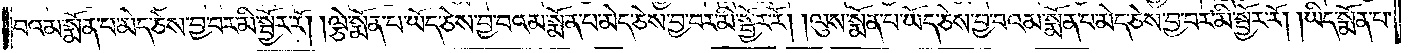བའམ་སྨོན་པ་མེད་ཅེས་བྱ་བར་མི་སྦྱོར་རོ། །ལྕེ་སྨོན་པ་ཡོད་ཅེས་བྱ་བའམ་སྨོན་པ་མེད་ཅེས་བྱ་བར་མི་སྦྱོར་རོ། །ལུས་སྨོན་པ་ཡོད་ཅེས་བྱ་བའམ་སྨོན་པ་མེད་ཅེས་བྱ་བར་མི་སྦྱོར་རོ། །ཡིད་སྨོན་པ་
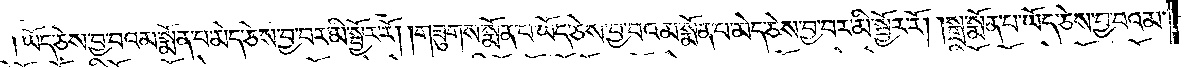ཡོད་ཅེས་བྱ་བའམ་སྨོན་པ་མེད་ཅེས་བྱ་བར་མི་སྦྱོར་རོ། །གཟུགས་སྨོན་པ་ཡོད་ཅེས་བྱ་བའམ་སྨོན་པ་མེད་ཅེས་བྱ་བར་མི་སྦྱོར་རོ། །སྒྲ་སྨོན་པ་ཡོད་ཅེས་བྱ་བའམ་
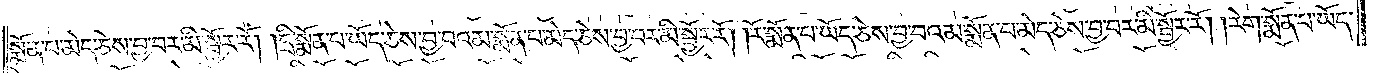སྨོན་པ་མེད་ཅེས་བྱ་བར་མི་སྦྱོར་རོ། །དྲི་སྨོན་པ་ཡོད་ཅེས་བྱ་བའམ་སྨོན་པ་མེད་ཅེས་བྱ་བར་མི་སྦྱོར་རོ། །རོ་སྨོན་པ་ཡོད་ཅེས་བྱ་བའམ་སྨོན་པ་མེད་ཅེས་བྱ་བར་མི་སྦྱོར་རོ། །རེག་སྨོན་པ་ཡོད་
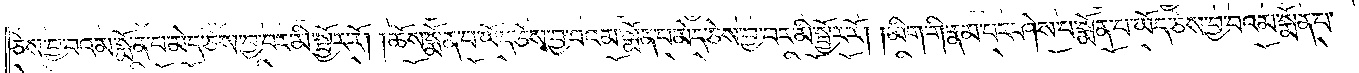ཅེས་བྱ་བའམ་སྨོན་པ་མེད་ཅེས་བྱ་བར་མི་སྦྱོར་རོ། །ཆོས་སྨོན་པ་ཡོད་ཅེས་བྱ་བའམ་སྨོན་པ་མེད་ཅེས་བྱ་བར་མི་སྦྱོར་རོ། །མིག་གི་རྣམ་པར་ཤེས་པ་སྨོན་པ་ཡོད་ཅེས་བྱ་བའམ་སྨོན་པ་
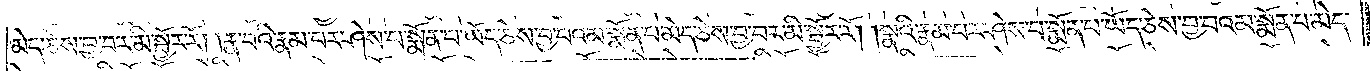མེད་ཅེས་བྱ་བར་མི་སྦྱོར་རོ། །རྣ་བའི་རྣམ་པར་ཤེས་པ་སྨོན་པ་ཡོད་ཅེས་བྱ་བའམ་སྨོན་པ་མེད་ཅེས་བྱ་བར་མི་སྦྱོར་རོ། །སྣའི་རྣམ་པར་ཤེས་པ་སྨོན་པ་ཡོད་ཅེས་བྱ་བའམ་སྨོན་པ་མེད་
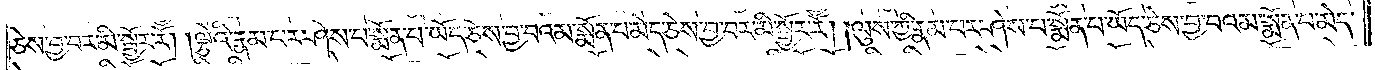ཅེས་བྱ་བར་མི་སྦྱོར་རོ། །ལྕེའི་རྣམ་པར་ཤེས་པ་སྨོན་པ་ཡོད་ཅེས་བྱ་བའམ་སྨོན་པ་མེད་ཅེས་བྱ་བར་མི་སྦྱོར་རོ། །ལུས་ཀྱི་རྣམ་པར་ཤེས་པ་སྨོན་པ་ཡོད་ཅེས་བྱ་བའམ་སྨོན་པ་མེད་
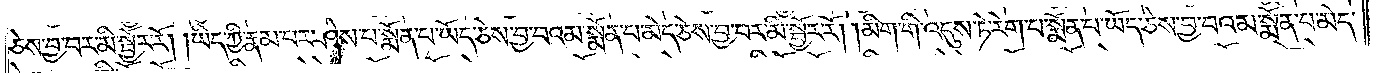ཅེས་བྱ་བར་མི་སྦྱོར་རོ། །ཡིད་ཀྱི་རྣམ་པར་ཤེས་པ་སྨོན་པ་ཡོད་ཅེས་བྱ་བའམ་སྨོན་པ་མེད་ཅེས་བྱ་བར་མི་སྦྱོར་རོ། །མིག་གི་འདུས་ཏེ་རེག་པ་སྨོན་པ་ཡོད་ཅེས་བྱ་བའམ་སྨོན་པ་མེད་
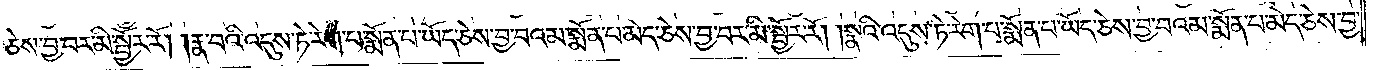ཅེས་བྱ་བར་མི་སྦྱོར་རོ། །རྣ་བའི་འདུས་ཏེ་རེག་པ་སྨོན་པ་ཡོད་ཅེས་བྱ་བའམ་སྨོན་པ་མེད་ཅེས་བྱ་བར་མི་སྦྱོར་རོ། །སྣའི་འདུས་ཏེ་རེག་པ་སྨོན་པ་ཡོད་ཅེས་བྱ་བའམ་སྨོན་པ་མེད་ཅེས་བྱ་
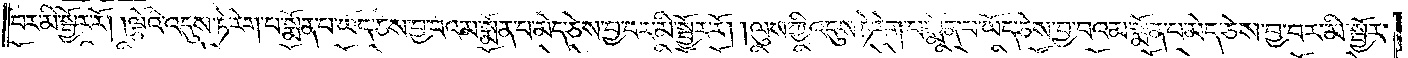བར་མི་སྦྱོར་རོ། །ལྕེའི་འདུས་ཏེ་རེག་པ་སྨོན་པ་ཡོད་ཅེས་བྱ་བའམ་སྨོན་པ་མེད་ཅེས་བྱ་བར་མི་སྦྱོར་རོ། །ལུས་ཀྱི་འདུས་ཏེ་རེག་པ་སྨོན་པ་ཡོད་ཅེས་བྱ་བའམ་སྨོན་པ་མེད་ཅེས་བྱ་བར་མི་སྦྱོར་
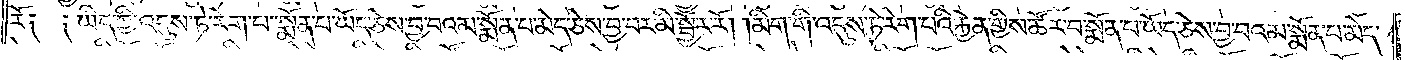རོ༑ ༑ཡིད་ཀྱི་འདུས་ཏེ་རེག་པ་སྨོན་པ་ཡོད་ཅེས་བྱ་བའམ་སྨོན་པ་མེད་ཅེས་བྱ་བར་མི་སྦྱོར་རོ། །མིག་གི་འདུས་ཏེ་རེག་པའི་རྐྱེན་གྱིས་ཚོར་བ་སྨོན་པ་ཡོད་ཅེས་བྱ་བའམ་སྨོན་པ་མེད་
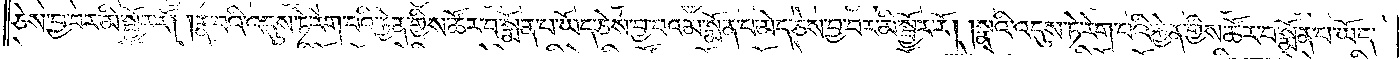ཅེས་བྱ་བར་མི་སྦྱོར་རོ། །རྣ་བའི་འདུས་ཏེ་རེག་པའི་རྐྱེན་གྱིས་ཚོར་བ་སྨོན་པ་ཡོད་ཅེས་བྱ་བའམ་སྨོན་པ་མེད་ཅེས་བྱ་བར་མི་སྦྱོར་རོ། །སྣའི་འདུས་ཏེ་རེག་པའི་རྐྱེན་གྱིས་ཚོར་བ་སྨོན་པ་ཡོད་
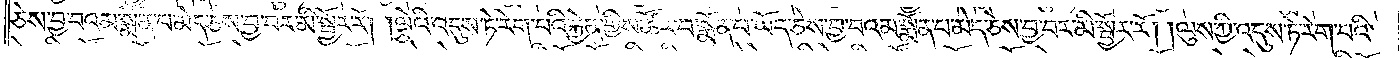ཅེས་བྱ་བའམ་སྨོན་པ་མེད་ཅེས་བྱ་བར་མི་སྦྱོར་རོ། །ལྕེའི་འདུས་ཏེ་རེག་པའི་རྐྱེན་གྱིས་ཚོར་བ་སྨོན་པ་ཡོད་ཅེས་བྱ་བའམ་སྨོན་པ་མེད་ཅེས་བྱ་བར་མི་སྦྱོར་རོ། །ལུས་ཀྱི་འདུས་ཏེ་རེག་པའི་
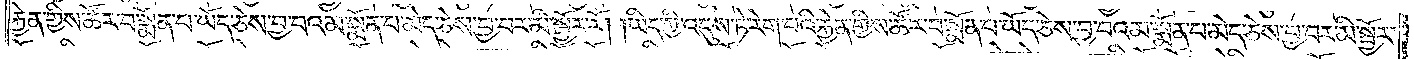རྐྱེན་གྱིས་ཚོར་བ་སྨོན་པ་ཡོད་ཅེས་བྱ་བའམ་སྨོན་པ་མེད་ཅེས་བྱ་བར་མི་སྦྱོར་རོ། །ཡིད་ཀྱི་འདུས་ཏེ་རེག་པའི་རྐྱེན་གྱིས་ཚོར་བ་སྨོན་པ་ཡོད་ཅེས་བྱ་བའམ་སྨོན་པ་མེད་ཅེས་བྱ་བར་མི་སྦྱོར་
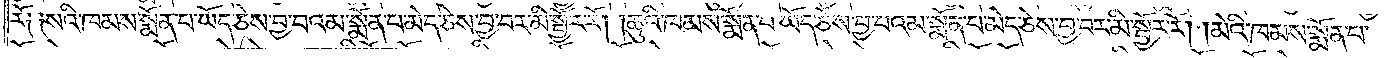རོ༑ ༑སའི་ཁམས་སྨོན་པ་ཡོད་ཅེས་བྱ་བའམ་སྨོན་པ་མེད་ཅེས་བྱ་བར་མི་སྦྱོར་རོ། །ཆུའི་ཁམས་སྨོན་པ་ཡོད་ཅེས་བྱ་བའམ་སྨོན་པ་མེད་ཅེས་བྱ་བར་མི་སྦྱོར་རོ། །མེའི་ཁམས་སྨོན་པ་
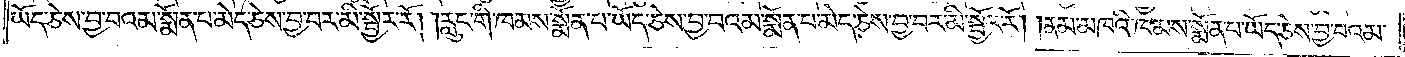ཡོད་ཅེས་བྱ་བའམ་སྨོན་པ་མེད་ཅེས་བྱ་བར་མི་སྦྱོར་རོ། །རླུང་གི་ཁམས་སྨོན་པ་ཡོད་ཅེས་བྱ་བའམ་སྨོན་པ་མེད་ཅེས་བྱ་བར་མི་སྦྱོར་རོ། །ནམ་མཁའི་ཁམས་སྨོན་པ་ཡོད་ཅེས་བྱ་བའམ་
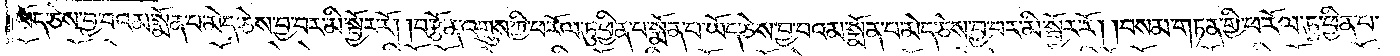ཡོད་ཅེས་བྱ་བའམ་སྨོན་པ་མེད་ཅེས་བྱ་བར་མི་སྦྱོར་རོ། །བརྩོན་འགྲུས་ཀྱི་ཕ་རོལ་ཏུ་ཕྱིན་པ་སྨོན་པ་ཡོད་ཅེས་བྱ་བའམ་སྨོན་པ་མེད་ཅེས་བྱ་བར་མི་སྦྱོར་རོ། །བསམ་གཏན་གྱི་ཕ་རོལ་ཏུ་ཕྱིན་པ་
